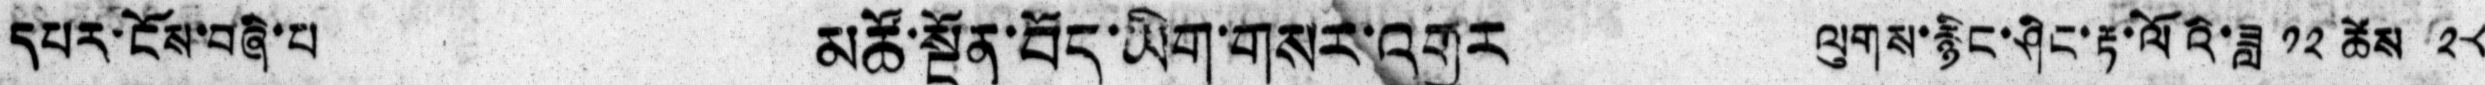དཔར་ངོས་བཞི་པ   མཚོ་སྔོན་བོད་ཡིག་གསར་འགྱུར  ལུགས་རྙིང་ཤིང་རྟ་ལོའི་ཟླ ༡༢ ཚེས ༢༨
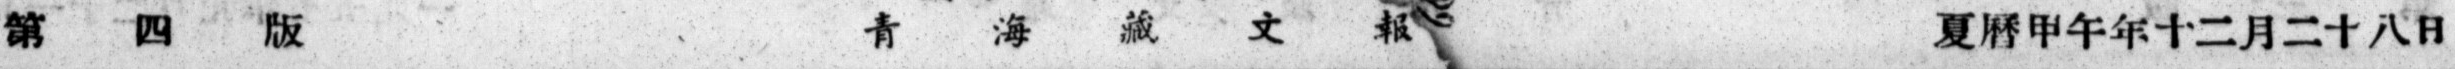第 四 版 青 海 藏 文 報 夏曆甲午年十二月二十八日
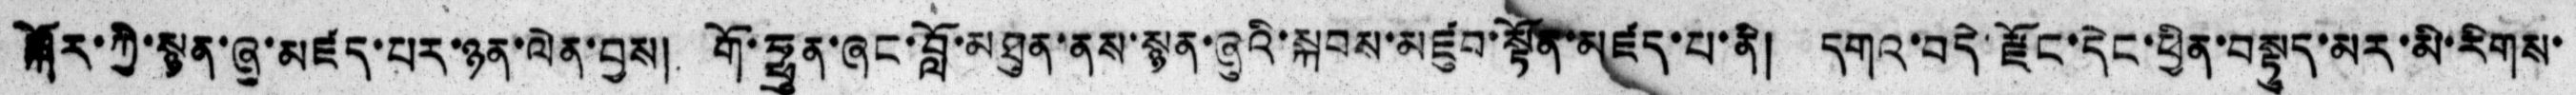སྐོར་ཀྱི་སྙན་ཞུ་མཛད་པར་ཉན་ལེན་བྱས། གོ་ཧྥུན་ཞང་བློ་མཐུན་ནས་སྙན་ཞུའི་སྐབས་མཛུབ་སྟོན་མཛད་པ་ནི། དགའ་བདེ་རྫོང་དེང་ཕྱིན་བསྟུད་མར་མི་རིགས་
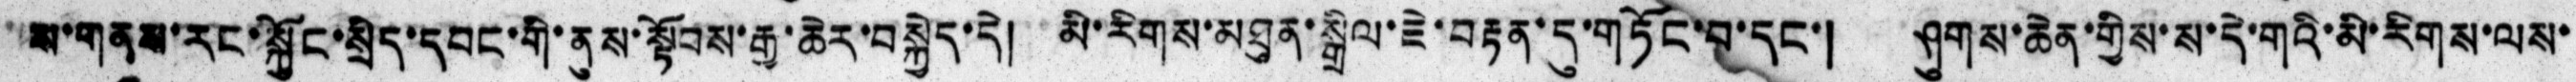ས་གནས་རང་སྐྱོང་སྲིད་དབང་གི་ནུས་སྟོབས་རྒྱ་ཆེར་བསྐྱེད་དེ། མི་རིགས་མཐུན་སྒྲིལ་ཇེ་བརྟན་དུ་གཏོང་བ་དང་། ཤུགས་ཆེན་གྱིས་ས་དེ་གའི་མི་རིགས་ལས་
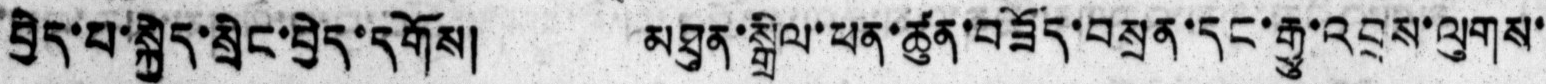བྱེད་པ་སྐྱེད་སྲིང་བྱེད་དགོས། མཐུན་སྒྲིལ་ཕན་ཚུན་བཟོད་བསྲན་དང་རྒྱུ་འབྲས་ལུགས་
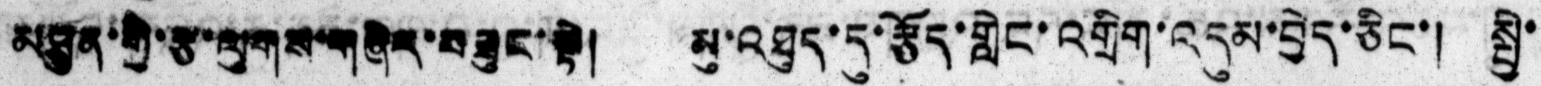མཐུན་གྱི་རྩ་ལུགས་གཞིར་བཟུང་སྟེ། མུ་འཐུད་དུ་རྩོད་གླེང་འགྲིག་འདུམ་བྱེད་ཅིང་། སྤྱི་
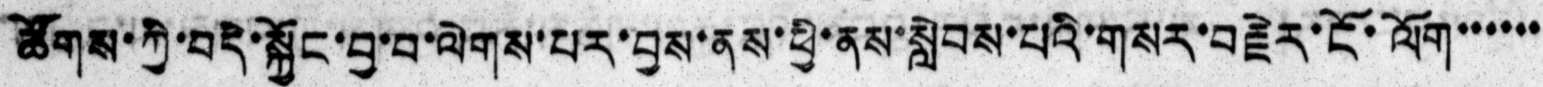ཚོགས་ཀྱི་བདེ་སྐྱོང་བྱ་བ་ལེགས་པར་བྱས་ནས་ཕྱི་ནས་སླེབས་པའི་གསར་བརྗེར་ངོ་ལོག་་་་་་་
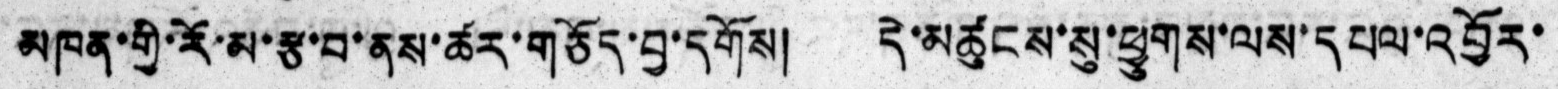མཁན་གྱི་རོ་མ་རྩ་བ་ནས་ཚར་གཅོད་བྱ་དགོས། དེ་མཚུངས་སུ་ཕྱུགས་ལས་དཔལ་འབྱོར་
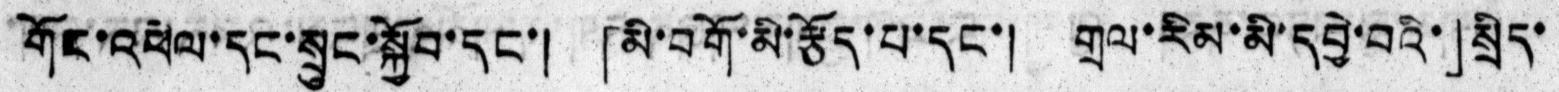གོང་འཕེལ་དང་སྲུང་སྐྱོབ་དང་། 「མི་བགོ་མི་རྩོད་པ་དང་། གྲལ་རིམ་མི་དབྱེ་བའི་」སྲིད་
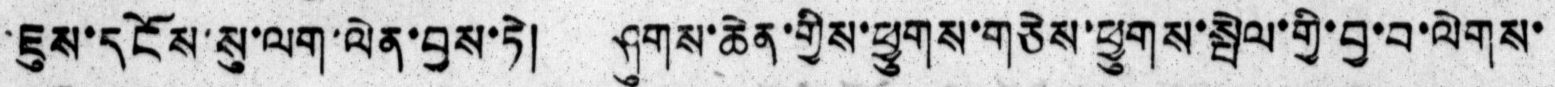ཇུས་དངོས་སུ་ལག་ལེན་བྱས་ཏེ། ཤུགས་ཆེན་གྱིས་ཕྱུགས་གཅེས་ཕྱུགས་སྤེལ་གྱི་བྱ་བ་ལེགས་
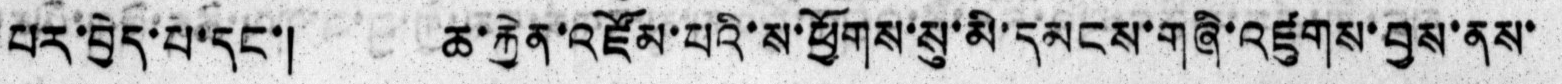པར་བྱེད་པ་དང་། ཆ་རྐྱེན་འཛོམ་པའི་ས་ཕྱོགས་སུ་མི་དམངས་གཞི་འཛུགས་བྱས་ནས་
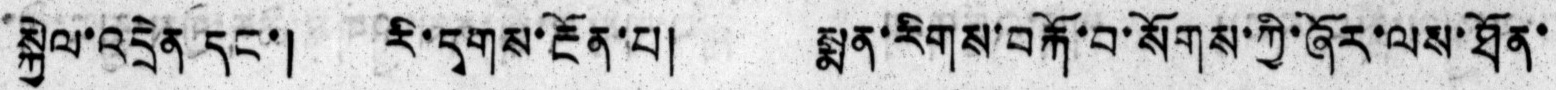སྐྱེལ་འདྲེན དང་། རི་དྭགས་རྔོན་པ། སྨན་རིགས་བརྐོ་བ་སོགས་ཀྱི་ཞོར་ལས་ཐོན་
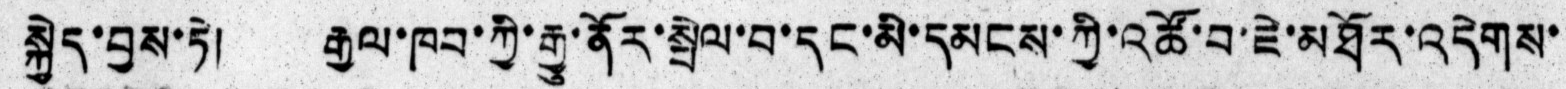སྐྱེད་བྱས་ཏེ། རྒྱལ་ཁབ་ཀྱི་རྒྱུ་ནོར་སྤེལ་བ་དང་མི་དམངས་ཀྱི་འཚོ་བ་ཇེ་མཐོར་འདེགས་
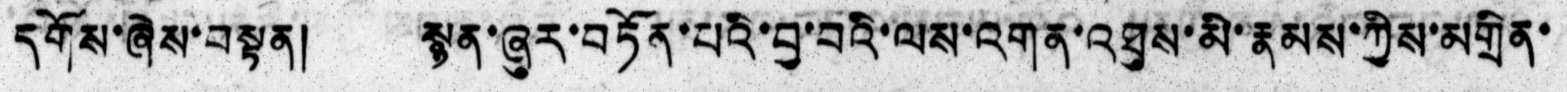དགོས་ཞེས་བསྟན། སྙན་ཞུར་བཏོན་པའི་བྱ་བའི་ལས་འགན་འཐུས་མི་རྣམས་ཀྱིས་མགྲིན་
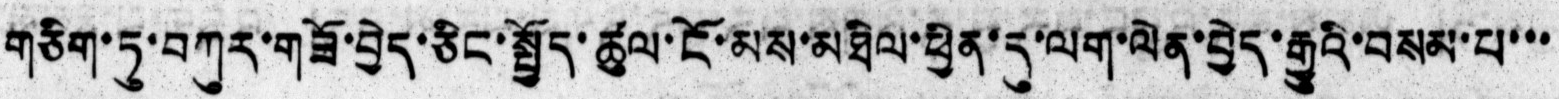གཅིག་ཏུ་བཀུར་གཟོ་བྱེད་ཅིང་སྤྱོད་ཚུལ་ངོ་མས་མཐིལ་ཕྱིན་དུ་ལག་ལེན་བྱེད་རྒྱུའི་བསམ་པ་་་
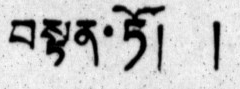བསྟན་ཏོ། །
